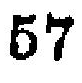57
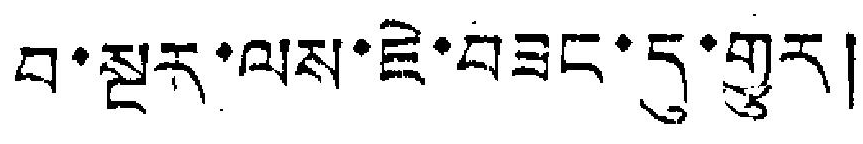བ་སྔར་ལས་ཇེ་བཟང་དུ་གྱུར།
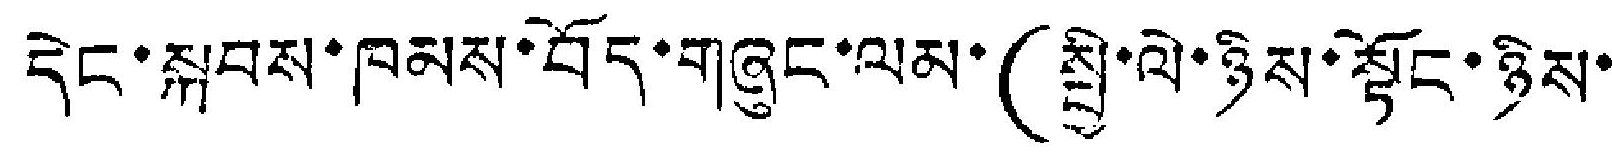དེང་སྐབས་ཁམས་བོད་གཞུང་ལམ་(སྤྱི་ལེ་ཉིས་སྟོང་ཉིས་
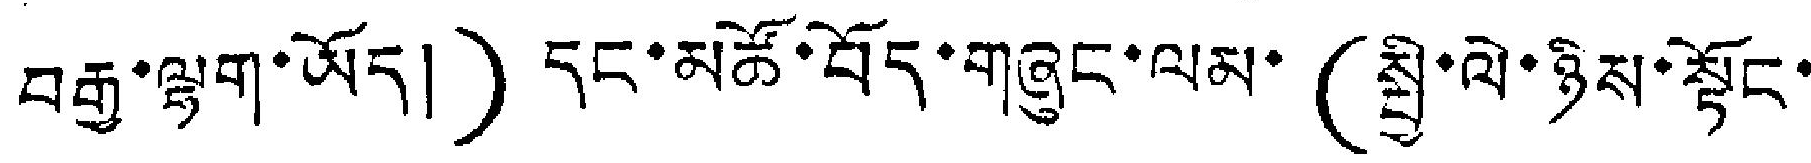བརྒྱ་ལྷག་ཡོད།) དང་མཚོ་བོད་གཞུང་ལམ་ (སྤྱི་ལེ་ཉིས་སྟོང་
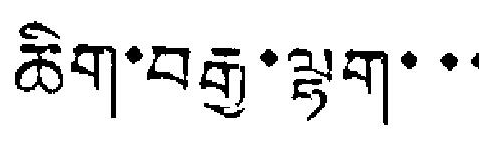ཆིག་བརྒྱ་ལྷག་་་
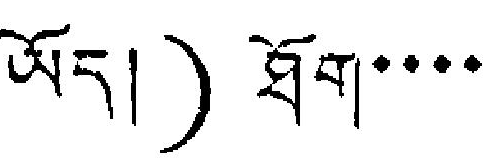ཡོད།) ཐོག་་་་
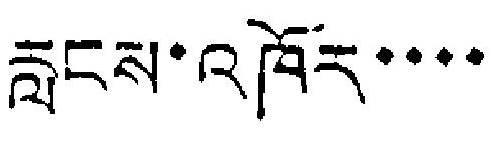རླངས་འཁོར་་་་
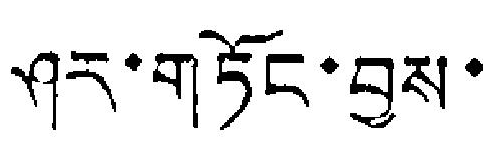ཤར་གཏོང་བྱས་
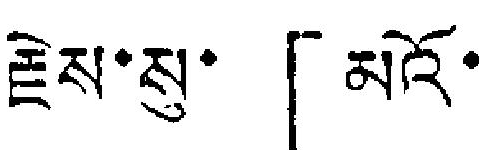རྗེས་སུ་「མའོ་
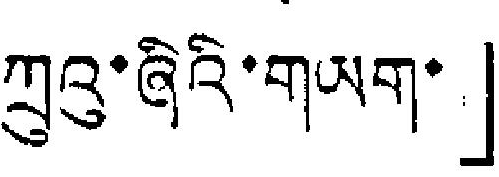ཀྲུའུ་ཞིའི་གཡག་」
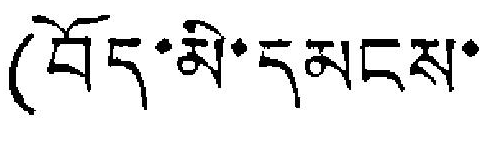(བོད་མི་དམངས་
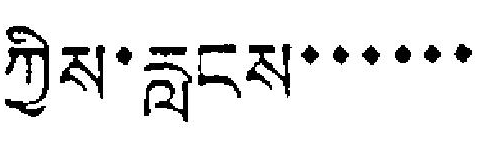ཀྱིས་རླངས་་་་་་
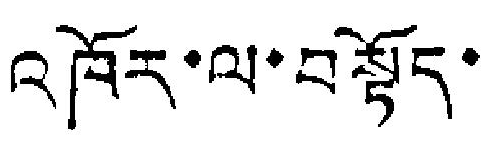འཁོར་ལ་བསྟོད་
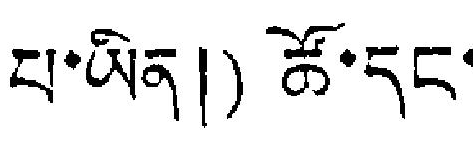པ་ཡིན།) ཚོ་དང་
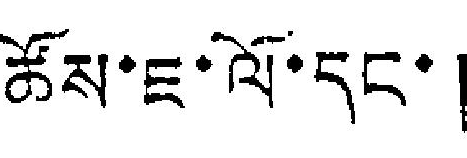ཚོས་ཇ་ལོ་དང་།
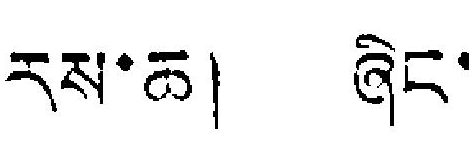རས་ཆ། ཞིང་
